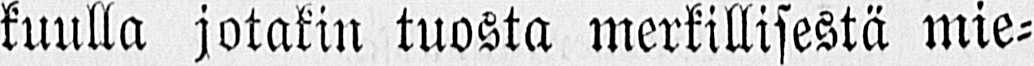kuulla jotakin tuosta merkillisestä mie-
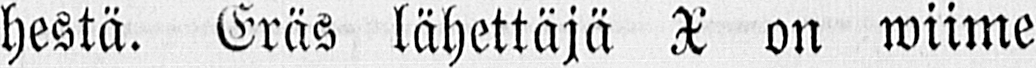hestä. Eräs lähettäjä X on wiime
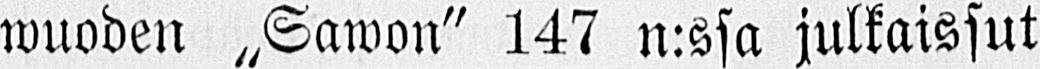wuoden „Sawon" 147 n:ssa julkaissut
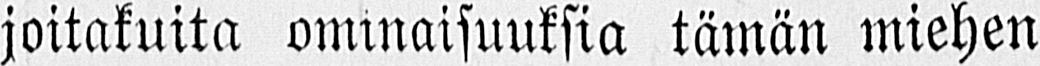joitakuita ominaisuuksia tämän miehen
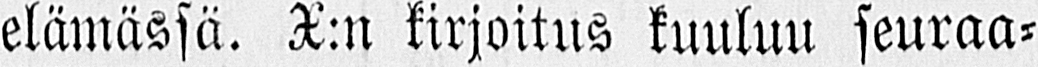elämässä. X:n kirjoitus kuuluu seuraa-
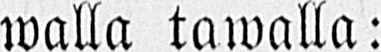walla tawalla:
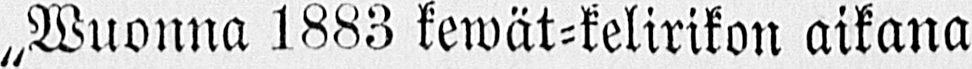„Wuonna 1883 kewät-kelirikon aikana
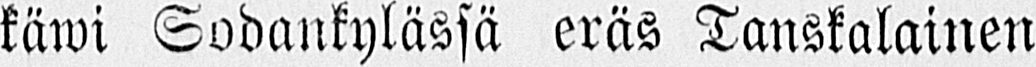käwi Sodankylässä eräs Tanskalainen
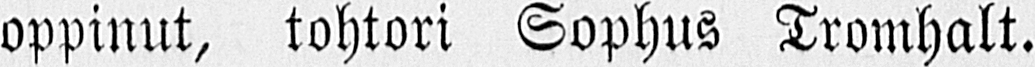oppinut, tohtori Sophus Tromhalt.
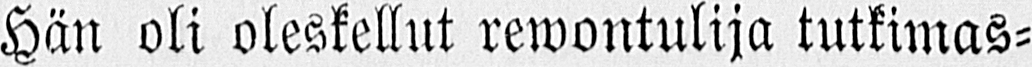Hän oli oleskellut rewontulija tutkimas-
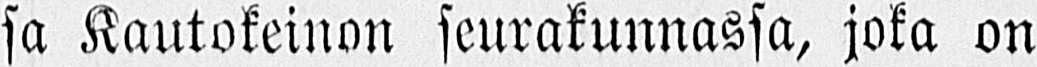sa Kautokeinon seurakunnassa, joka on
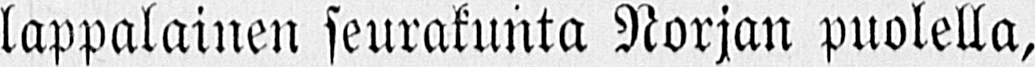lappalainen seurakunta Norjan puolella,
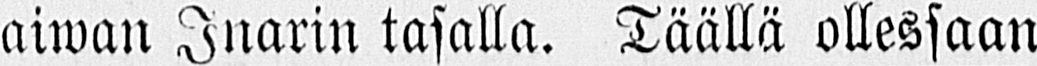aiwan Inarin tasalla. Täällä ollessaan
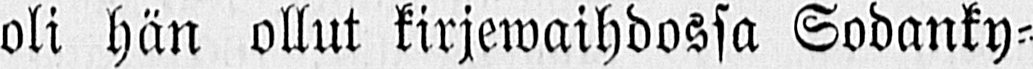oli hän ollut kirjewaihdossa Sodanky-
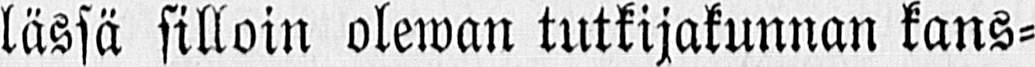lässä silloin olewan tutkijakunnan kans-
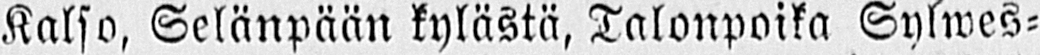Kalso, Selänpään kylästä, Talonpoika Sylwes-
